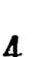4
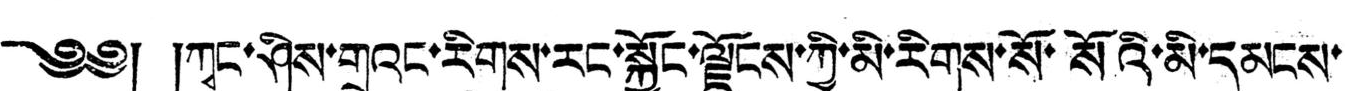༄༅། །ཀྭང་ཤིས་གྲུའང་རིགས་རང་སྐྱོང་ལྗོངས་ཀྱི་མི་རིགས་སོ་སོའི་མི་དམངས་
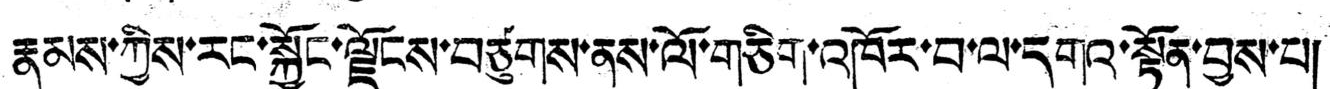རྣམས་ཀྱིས་རང་སྐྱོང་ལྗོངས་བཙུགས་ནས་ལོ་གཅིག་འཁོར་བ་ལ་དགའ་སྟོན་བྱས་པ།
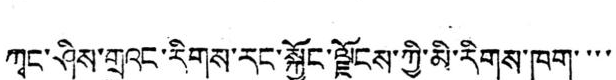ཀྭང་ཤིས་གྲུའང་རིགས་རང་སྐྱོང་ལྗོངས་ཀྱི་མི་རིགས་ཁག་་་་
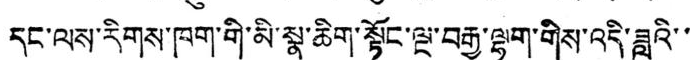དང་ལས་རིགས་ཁག་གི་མི་སྣ་ཆིག་སྟོང་ལྔ་བརྒྱ་ལྷག་གིས་འདི་ཟླའི་་
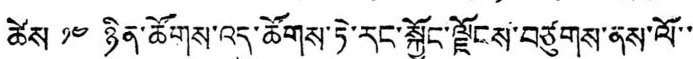ཚེས ༡༤ ཉིན་ཚོགས་འདུ་ཚོགས་ཏེ་རང་སྐྱོང་ལྗོངས་བཙུགས་ནས་ལོ་་
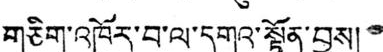གཅིག་འཁོར་བ་ལ་དགའ་སྟོན་བྱས།
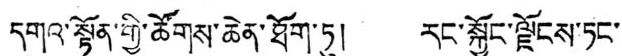དགའ་སྟོན་གྱི་ཚོགས་ཆེན་ཐོག་ཏུ། རང་སྐྱོང་ལྗོངས་ཏང་
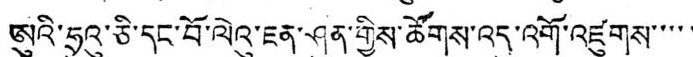ཨུའི་ཧྲུའུ་ཅི་དང་བོ་ལེའུ་ཇན་ཤུན་གྱིས་ཚོགས་འདུ་འགོ་འཛུགས་་་་་
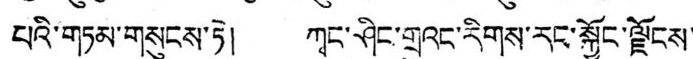པའི་གཏམ་གསུངས་ཏེ། ཀྭང་ཤིང་གྲུའང་རིགས་རང་སྐྱོང་ལྗོངས་
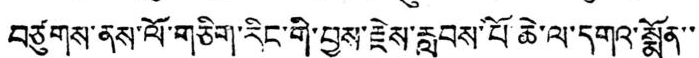བཙུགས་ནས་ལོ་གཅིག་རིང་གི་བྱས་རྗེས་རླབས་པོ་ཆེ་ལ་དགའ་སྨོན་་
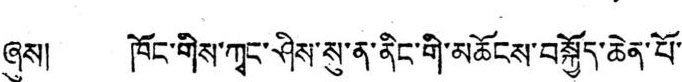ཞུས། ཁོང་གིས་ཀྭང་ཤིས་སུ་ན་ནིང་གི་མཆོངས་བསྐྱོད་ཆེན་པོ་
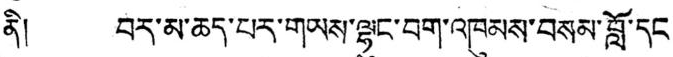ནི། བར་མ་ཆད་པར་གཡས་ལྷུང་བག་འཁུམས་བསམ་བློ་དང་
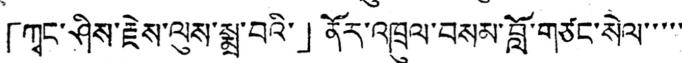「ཀྭང་ཤིས་རྗེས་ལུས་སྨྲ་བའི་」ནོར་འཁྲུལ་བསམ་བློ་གཙང་སེལ་་་་་
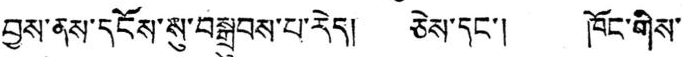བྱས་ནས་དངོས་སུ་བསྒྲུབས་པ་རེད། ཅེས་དང་། ཁོང་གིས་
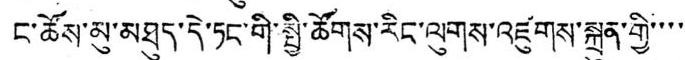ང་ཚོས་མུ་མཐུད་དེ་ཏང་གི་སྤྱི་ཚོགས་རིང་ལུགས་འཛུགས་སྐྲུན་གྱི་་་་་
